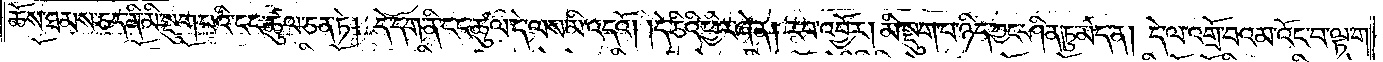ཆོས་ཐམས་ཅད་ནི་མི་སྡུག་པའི་ངང་ཚུལ་ཅན་ཏེ། དེ་དག་ནི་ངང་ཚུལ་དེ་ལས་མ་འདའོ། །དེ་ཅིའི་ཕྱིར་ཞེ་ན། རབ་འབྱོར། མི་སྡུག་པ་ཉིད་ཀྱང་ཤིན་ཏུ་མེད་ན། དེ་ལ་འགྲོ་བའམ་འོང་བ་ལྟ་ག་
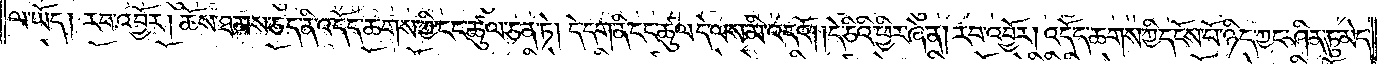ལ་ཡོད། རབ་འབྱོར། ཆོས་ཐམས་ཅད་ནི་འདོད་ཆགས་ཀྱི་ངང་ཚུལ་ཅན་ཏེ། དེ་དག་ནི་ངང་ཚུལ་དེ་ལས་མི་འདའོ། །དེ་ཅིའི་ཕྱིར་ཞེ་ན། རབ་འབྱོར། འདོད་ཆགས་ཀྱི་དངོས་པོ་ཉིད་ཀྱང་ཤིན་ཏུ་མེད་
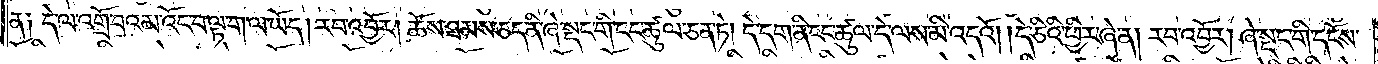ན༑ དེ་ལ་འགྲོ་བའམ་འོང་བ་ལྟ་ག་ལ་ཡོད། རབ་འབྱོར། ཆོས་ཐམས་ཅད་ནི་ཞེ་སྡང་གི་ངང་ཚུལ་ཅན་ཏེ། དེ་དག་ནི་ངང་ཚུལ་དེ་ལས་མི་འདའོ། །དེ་ཅིའི་ཕྱིར་ཞེ་ན། རབ་འབྱོར། ཞེ་སྡང་གི་དངོས་
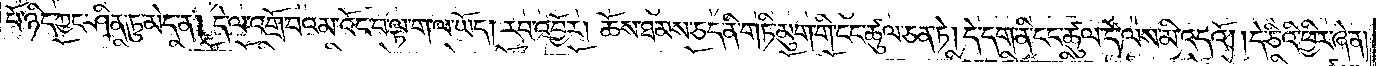པོ་ཉིད་ཀྱང་ཤིན་ཏུ་མེད་ན། དེ་ལ་འགྲོ་བའམ་འོང་བ་ལྟ་ག་ལ་ཡོད། རབ་འབྱོར། ཆོས་ཐམས་ཅད་ནི་གཏི་མུག་གི་ངང་ཚུལ་ཅན་ཏེ། དེ་དག་ནི་ངང་ཚུལ་དེ་ལས་མི་འདའོ། །དེ་ཅིའི་ཕྱིར་ཞེ་ན།
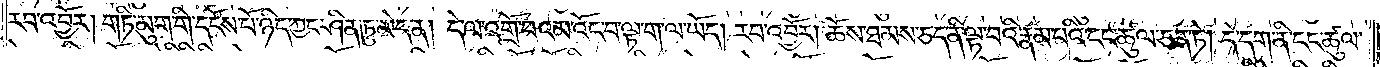རབ་འབྱོར། གཏི་མུག་གི་དངོས་པོ་ཉིད་ཀྱང་ཤིན་ཏུ་མེད་ན། དེ་ལ་འགྲོ་བའམ་འོང་བ་ལྟ་ག་ལ་ཡོད། རབ་འབྱོར། ཆོས་ཐམས་ཅད་ནི་ལྟ་བའི་རྣམ་པའི་ངང་ཚུལ་ཅན་ཏེ། དེ་དག་ནི་ངང་ཚུལ་
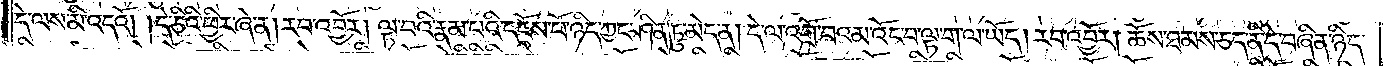དེ་ལས་མི་འདའོ། །དེ་ཅིའི་ཕྱིར་ཞེ་ན། རབ་འབྱོར། ལྟ་བའི་རྣམ་པའི་དངོས་པོ་ཉིད་ཀྱང་ཤིན་ཏུ་མེད་ན། དེ་ལ་འགྲོ་བའམ་འོང་བ་ལྟ་ག་ལ་ཡོད། རབ་འབྱོར། ཆོས་ཐམས་ཅད་ནི་དེ་བཞིན་ཉིད་
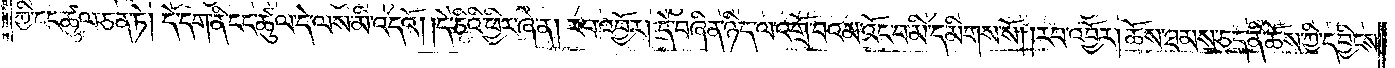ཀྱི་ངང་ཚུལ་ཅན་ཏེ། དེ་དག་ནི་ངང་ཚུལ་དེ་ལས་མི་འདའོ། །དེ་ཅིའི་ཕྱིར་ཞེ་ན། རབ་འབྱོར། དེ་བཞིན་ཉིད་ལ་འགྲོ་བའམ་འོང་བ་མི་དམིགས་སོ། །རབ་འབྱོར། ཆོས་ཐམས་ཅད་ནི་ཆོས་ཀྱི་དབྱིངས་
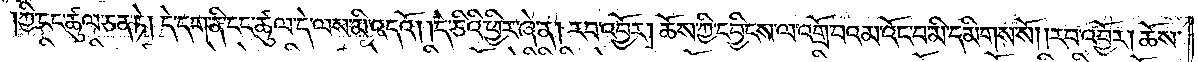ཀྱི་ངང་ཚུལ་ཅན་ཏེ། དེ་དག་ནི་ངང་ཚུལ་དེ་ལས་མི་འདའོ། །དེ་ཅིའི་ཕྱིར་ཞེ་ན། རབ་འབྱོར། ཆོས་ཀྱི་དབྱིངས་ལ་འགྲོ་བའམ་འོང་བ་མི་དམིགས་སོ། །རབ་འབྱོར། ཆོས་
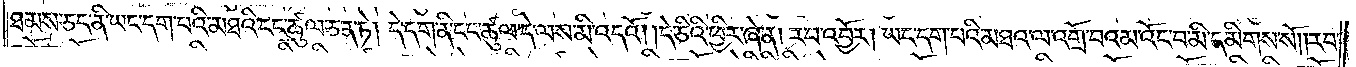ཐམས་ཅད་ནི་ཡང་དག་པའི་མཐའི་ངང་ཚུལ་ཅན་ཏེ། དེ་དག་ནི་ངང་ཚུལ་དེ་ལས་མི་འདའོ། །དེ་ཅིའི་ཕྱིར་ཞེ་ན། རབ་འབྱོར། ཡང་དག་པའི་མཐའ་ལ་འགྲོ་བའམ་འོང་བ་མི་དམིགས་སོ། །རབ་
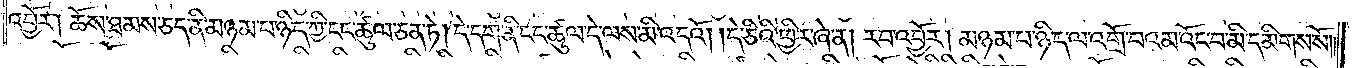འབྱོར། ཆོས་ཐམས་ཅད་ནི་མཉམ་པ་ཉིད་ཀྱི་ངང་ཚུལ་ཅན་ཏེ། དེ་དག་ནི་ངང་ཚུལ་དེ་ལས་མི་འདའོ༎ དེ་ཅིའི་ཕྱིར་ཞེ་ན། རབ་འབྱོར། མཉམ་པ་ཉིད་ལ་འགྲོ་བའམ་འོང་བ་མི་དམིགས་སོ༎
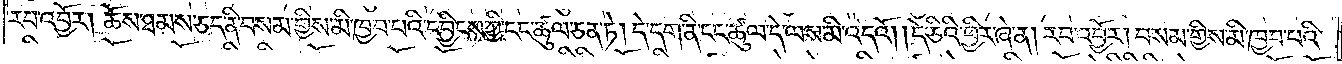རབ་འབྱོར། ཆོས་ཐམས་ཅད་ནི་བསམ་གྱིས་མི་ཁྱབ་པའི་དབྱིངས་ཀྱི་ངང་ཚུལ་ཅན་ཏེ། དེ་དག་ནི་ངང་ཚུལ་དེ་ལས་མི་འདའོ། །དེ་ཅིའི་ཕྱིར་ཞེ་ན། རང་འབྱོར། བསམ་གྱིས་མི་ཁྱབ་པའི་
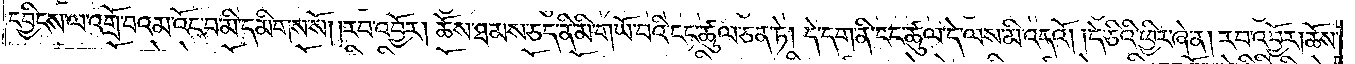དབྱིངས་ལ་འགྲོ་བའམ་འོང་བ་མི་དམིགས་སོ། །རབ་འབྱོར། ཆོས་ཐམས་ཅད་ནི་མ་གཡོ་བའི་ངང་ཚུལ་ཅན་ཏེ། དེ་དག་ནི་ངང་ཚུལ་དེ་ལས་མི་འདའོ། །དེ་ཅིའི་ཕྱིར་ཞེ་ན། རབ་འབྱོར། ཆོས་
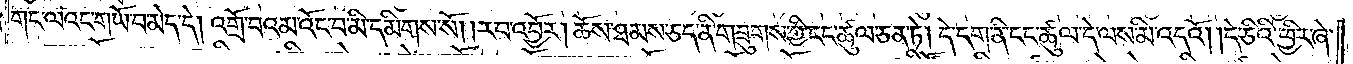གང་ལའང་གཡོ་བ་མེད་དེ། འགྲོ་བའམ་འོང་བ་མི་དམིགས་སོ། །རབ་འབྱོར། ཆོས་ཐམས་ཅད་ནི་གཟུགས་ཀྱི་ངང་ཚུལ་ཅན་ཏེ། དེ་དག་ནི་ངང་ཚུལ་དེ་ལས་མི་འདའོ། །དེ་ཅིའི་ཕྱིར་ཞེ་
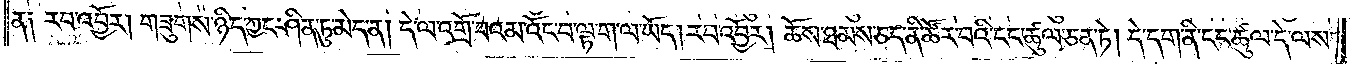ན༑ རབ་འབྱོར། གཟུགས་ཉིད་ཀྱང་ཤིན་ཏུ་མེད་ན། དེ་ལ་འགྲོ་བའམ་འོང་བ་ལྟ་ག་ལ་ཡོད། རབ་འབྱོར། ཆོས་ཐམས་ཅད་ནི་ཚོར་བའི་ངང་ཚུལ་ཅན་ཏེ། དེ་དག་ནི་ངང་ཚུལ་དེ་ལས་
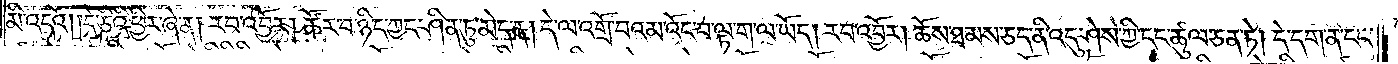མི་འདའོ། །དེ་ཅིའི་ཕྱིར་ཞེ་ན། རབ་འབྱོར། ཚོར་བ་ཉིད་ཀྱང་ཤིན་ཏུ་མེད་ན། དེ་ལ་འགྲོ་བའམ་འོང་བ་ལྟ་ག་ལ་ཡོད། རབ་འབྱོར། ཆོས་ཐམས་ཅད་ནི་འདུ་ཤེས་ཀྱི་ངང་ཚུལ་ཅན་ཏེ། དེ་དག་ནི་ངང་
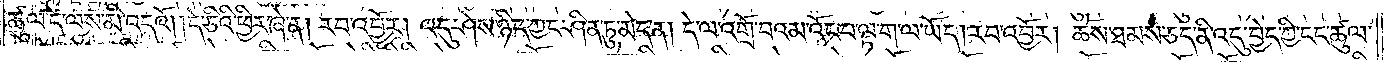ཚུལ་དེ་ལས་མི་འདའོ། །དེ་ཅིའི་ཕྱིར་ཞེ་ན། རབ་འབྱོར། འདུ་ཤེས་ཉིད་ཀྱང་ཤིན་ཏུ་མེད་ན། དེ་ལ་འགྲོ་བའམ་འོང་བ་ལྟ་ག་ལ་ཡོད། རབ་འབྱོར། ཆོས་ཐམས་ཅད་ནི་འདུ་བྱེད་ཀྱི་ངང་ཚུལ་
